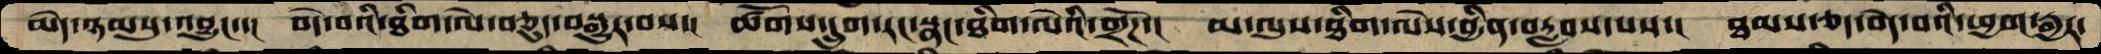མེད་ཉམསུ་འབྱུང་་།  བདེ་བའི་ཐིག་ལེ་བཅུད་བསྒྱུར་བས་།  ཚོགས་དྲུག་རང་སྣང་ཐིག་ལེའི་གྲོཌ་།  མ་ལུས་ཐིག་ལེས་བྱིན་བརླབས་པས་།  ཐམས་ཅད་བདེ་བའི་ཕྱག་རྒྱར་
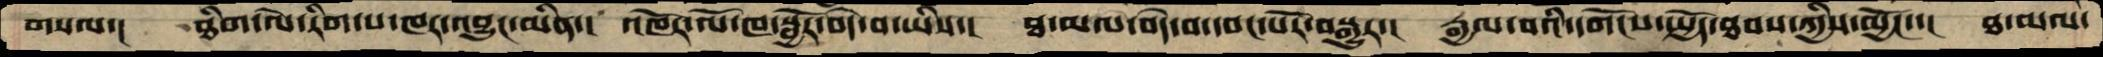གསལ་།  ཐིག་ལེ་རིག་པ་ཁར་འབྱུང་མིན་།  འཁོར་ལོ་ཁ་སྦྱོར་བདེ་བ་ཡིས་།  ཐ་མལ་བདེ་བ་དབང་པོར་བསྒྱུར་།   རྒྱལ་བའི་དགོངས་སྤྱོད་ཐབས་ཀྱིས་མྱོང་་།  ཐ་མལ་
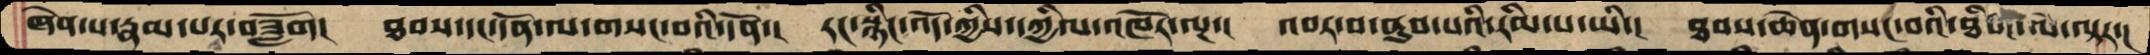ཞེན་པ་རྣམ་པར་བཟློག།  ཐབས་དང་དོན་ལ་གསང་བའི་དོན་།  རང་སྙིང་འོད་ཀྱིས་དཀྱིལ་འཁོར་ལྔ་།  འབར་བ་ནུབ་པའི་རིམ་པ་ཡི་།  ཐབས་ཆེན་གསང་བའི་ཐིག་ལེ་ལྟར་།
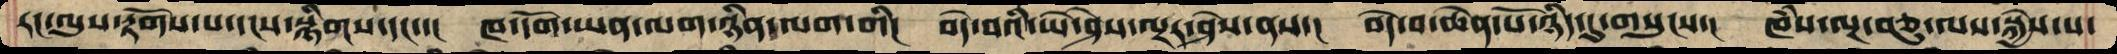རང་ལུས་རྟོགས་པ་དངས་སྙིགས་དང་་།  ཁ་དོག་ཡན་ལག་ཉིན་ལག་གི།  བདེ་བའི་ཡེ་ཤེས་ལྔར་ཤེས་ནས་།  བདེ་བ་ཆེན་པོ་ཉིད་དུ་གསུངས་།  ཁཾས་ལྔ་བཅུ་ལས་སྐྱེས་པ་
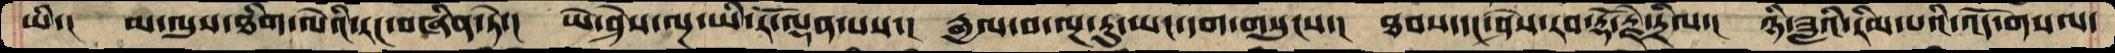ཡི་།  མ་ལུས་ཐིག་ལེའི་རང་བཞིན་ཏེ་།  ཡེ་ཤེས་ལྔ་ཡི་རོ་ལྡན་པས་།  རྒྱལ་བ་ལྔ་རུ་ཡང་དག་གསུངས་།  ཐབས་དང་ཤེས་རབ་རྡོ་རྗེ་དྲིལ་།  ཉི་ཟླའི་རིམ་པའི་འོད་གསལ་
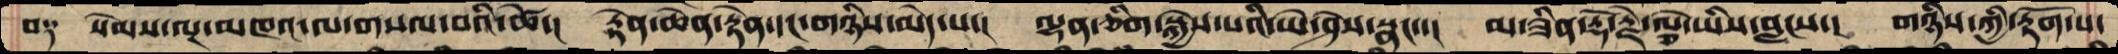བ༑  སེམས་ལྔ་མཁའ་ལ་གསལ་བའི་ཚེ་།   རྟེན་ཆེན་རྟེན་དང་གཉིས་མེད་པ་།  ལྷན་ཅིག་སྐྱེས་པའི་ཡེ་ཤེས་སྣང་་།  མ་ཟིན་རྡོ་རྗེ་ལྕེ་ཡིས་བླངས་།  གཉིས་ཀྱི་རྟོག་པ་
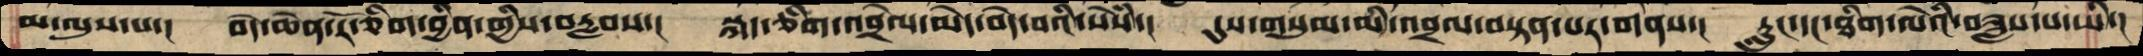མ་ལུས་པ་།  བདེ་ཆེན་རོ་ཅིག་བྱིན་གྱིས་བརླབས་།  སྐད་ཅིག་འབྲེལ་མེད་བདེ་བའི་སེཾས་།  དུག་གསུམ་མི་འབྲལ་བསྟན་པར་གནས་།  རླུང་དང་ཐིག་ལེའི་བཟླས་པ་ཡི་།
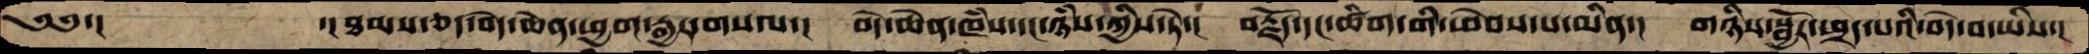༄༅་།    ་།ཐམས་ཅད་བདེ་ཆེན་ཕྱག་རྒྱར་གསལ་།  བདེ་ཆེན་ཁཾས་དང་ཉཾས་ཀྱིས་ཏེ་།  བརྗོད་དང་ཚིག་གི་ཕེབས་པ་མིན་།  གཉིས་སྦྱོར་ཕྲད་པའི་བདེ་བ་ཡིས་།
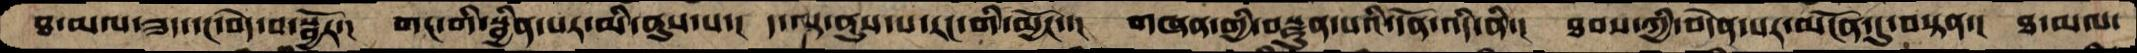ཐ་མལ་ཟད་དང་བདེ་བ་སྦྱོར་།  གང་གི་སྦྱིན་པར་མི་ནུས་པ་།  ད་ལྟ་ནུས་པ་རང་གི་མྱོང་་།  གཞན་གྱི་བསྣུན་པའི་དོན་འདི་ནི་།  ཐབས་ཀྱི་བདེན་པར་མངོན་དུ་བསྟན་།  ཐ་མལ་
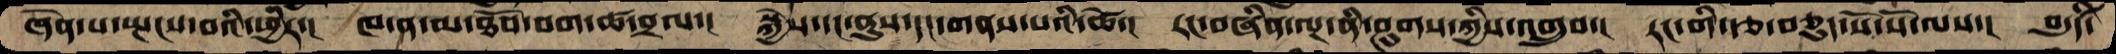ཞོོན་པ་སྤངས་བའི་ཕྱིར་།  ཁ་ན་མ་ཐོབ་བག་ཚ་བྲལ་།  སྐྱེས་དང་ནུས་དང་གནས་པའི་ཚེ་།  རང་བཞིན་ལྔ་ནི་ཤུགས་ཀྱིས་འགྲུབ་།  རང་གི་རྩ་བཅུད་སོ་སོ་ལས་།  བདུདཙི་
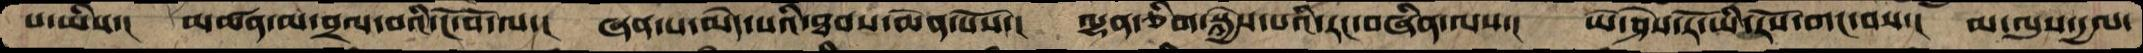པ་ཡིས་།  མཚན་མ་བྲལ་བའི་ངོ་བོ་ལ་།  ཞན་པ་མེད་པའི་ཐབས་ཆེན་པོས་།  ལྷན་ཅིག་སྐྱེས་པའི་རང་བཞིན་ལས་།  ཡེ་ཤེས་རོ་ཡི་རོས་གང་བས་།  མ་ལུས་དྱལ་
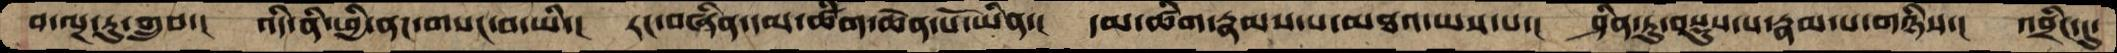བ་ལྔ་རུ་གྲུབ་།   འདི་ནི་ཕྱི་ནང་གསང་བ་ཡི་།  རང་བཞིན་དམ་ཚིག་ཆེན་པོ་ཡིན་།  དམ་ཚིག་རྣམས་པ་མཐའ་ཡས་པ་།  ཤིན་ཏུ་བསྡུས་པ་རྣམ་པ་གཉིས་།  འབྲིང་དུ་
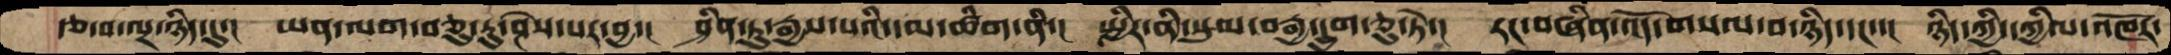རྩ་བ་ལྔ་ཉིད་དུ་།   ཡན་ལག་བཅུ་རུ་ཤེས་པར་བྱ་།  ཤིན་ཏུ་རྒྱས་པའི་དམ་ཚིག་ནི་།  སྤྱིར་ནི་སུམ་བརྒྱ་དྲུག་ཅུ་ཏེ་།  རང་བཞིན་འོད་གསལ་བ་ཉིད་དང་་།  ཉིད་ཀྱི་དཀྱིལ་འཁོར་
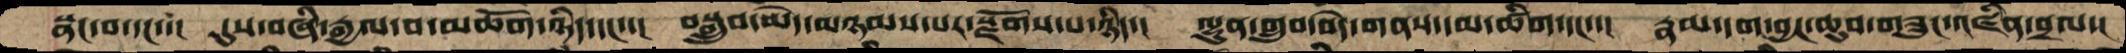སྣང་བ་དང་་།  དུས་བཞི་རྒྱལ་བ་མཆོག་ཉིད་དང་་།  བསྒྲུབ་མེད་མཉམས་པར་སྫོགས་པ་ཉིད་།  ལྷུན་གྲུབ་བདེ་གནས་དམ་ཚིག་དང་་།  རྣམ་དག་བྱང་ཆུབ་གཟུང་འཛིན་བྲལ་།
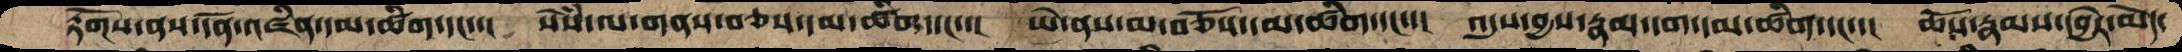རྟོགས་ནས་དོན་འཛིན་དམ་ཚིག་དང་་།  སེཾས་ལ་གནས་བཅས་དམ་ཚིག་དང་་།  ཡེ་ནས་མ་བཅོས་དམ་ཚིག་དང་་།  འདུས་བྱས་རྣམ་དག་དམ་ཚིག་དང་་།  ཆོས་རྣམས་དབྱེར་མེད་
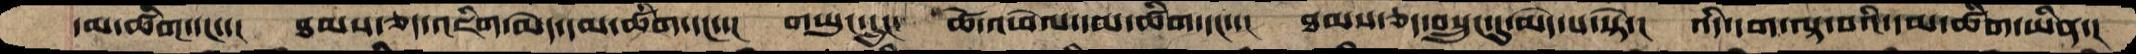དམ་ཚིག་དང་་།  ཐམས་ཅད་འཇིག་མེད་དམ་ཚིག་དང་་།  གཡུང་དྲུང་  ཚེ་འཕེལ་དམ་ཚིག་དང་་།  ཐམས་ཅད་བསྲུང་དུ་མེད་པ་སྟེ་།  འདི་དག་ལྟ་བའི་དམ་ཚིག་ཡིན་།
